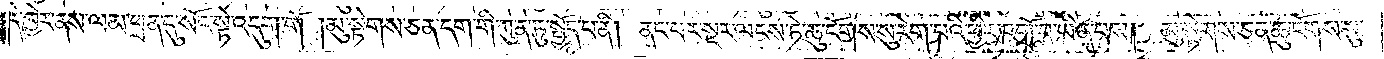དེ་ཁྱེར་ནས་ལམ་ཕྲན་དུ་སོང་སྟེ་འདུག་གོ །མུ་སྟེགས་ཅན་དག་གི་ཀུན་ཏུ་སྤྱོད་པ་ནི། ནང་པར་སྔར་ལངས་ཏེ་ཆུ་ངོགས་སུ་རེག་པའི་ཕྱིར་འགྲོ་བ་ཡིན་པས། མུ་སྟེགས་ཅན་ཆུ་ངོགས་སུ་
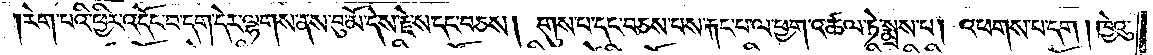རེག་པའི་ཕྱིར་འདོང་བ་དག་དེར་ལྷགས་ནས་བུ་མོ་དེས་རྗེ་ས་དང་བཅས། གུས་པ་དང་བཅས་པས་རྐང་པ་ལ་ཕྱག་འཚལ་ཏེ་སྨྲས་པ། འཕགས་པ་དག །ཁྱེའུ་
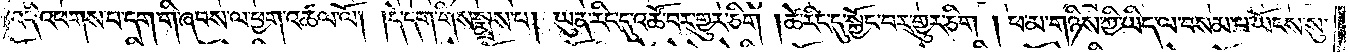འདི་འཕགས་པ་དག་གི་ཞབས་ལ་ཕྱག་འཚལ་ལོ། །དེ་དག་གིས་སྨྲས་པ། ཡུན་རིང་དུ་འཚོ་བར་གྱུར་ཅིག །ཚེ་རིང་དུ་སྐྱོང་བར་གྱུར་ཅིག །ཕ་མ་གཉིས་ཀྱི་ཡིད་ལ་བསམ་པ་ཡོངས་སུ་
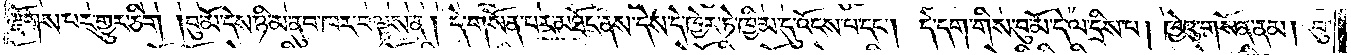རྫོགས་པར་གྱུར་ཅིག །བུ་མོ་དེས་ཉི་མ་ནུབ་ཁར་བལྟས་ན། དེ་གསོན་པར་མཐོང་ནས་དེས་དེ་ཁྱེར་ཏེ་ཁྱིམ་དུ་འོངས་པ་དང༌། དེ་དག་གིས་བུ་མོ་དེ་ལ་དྲིས་པ། ཁྱེའུ་གསོན་ནམ། བུ་
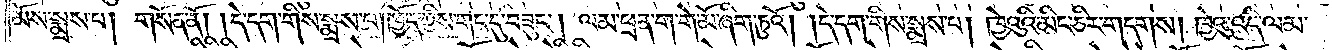མོས་སྨྲས་པ། གསོན་ནོ། །དེ་དག་གིས་སྨྲས་པ། ཁྱོད་ཀྱིས་གང་དུ་བཟུང༌། ལམ་ཕྲན་ག་གེ་མོ་ཞིག་ཏུའོ། །དེ་དག་གིས་སྨྲས་པ། ཁྱེའུའི་མིང་ཅིར་གདགས། ཁྱེའུ་འདི་ལམ་
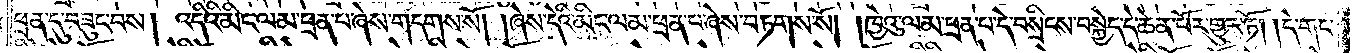ཕྲན་དུ་བཟུང་བས། འདིའི་མིང་ལམ་ཕྲན་པ་ཞེས་གདགས་སོ། །ཞེས་དེའི་མིང་ལམ་ཕྲན་པ་ཞེས་བཏགས་སོ། །ཁྱེའུ་ལམ་ཕྲན་པ་དེ་བསྲིངས་བསྐྱེད་དེ་ཆེན་པོར་གྱུར་ཏོ། །དེ་གང་
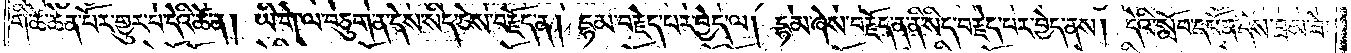གི་ཚེ་ཆེན་པོར་གྱུར་པ་དེའི་ཚེ་ན། ཡི་གེ་ལ་བཅུག་ན་དེས་སིད་ཅེས་བརྗོད་ན། དྷམ་བརྗེད་པར་བྱེད་ལ། དྷམ་ཞེས་བརྗོད་ན་ནི་སིད་བརྗེད་པར་བྱེད་ནས། དེའི་སློབ་དཔོན་དེས་བྲམ་ཟེ་
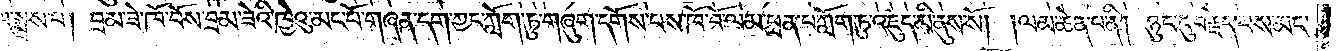ལ་སྨྲས་པ། བྲམ་ཟེ་ཁོ་བོས་བྲམ་ཟེའི་ཁྱེའུ་མང་པོ་གཞན་དག་ཀྱང་ཀློག་ཏུ་གཞུག་དགོས་པས་ཁོ་བོ་ལམ་ཕྲན་པ་ཀློག་ཏུ་འཇུད་མི་ནུས་སོ། །ལམ་ཆེན་པ་ནི། ཉུང་ངུ་བརྗོད་པས་མང་
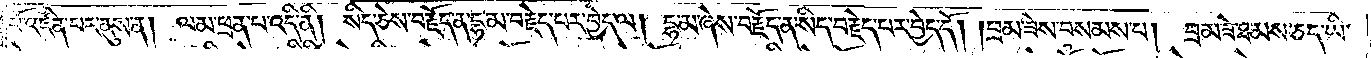པོ་འཛིན་པར་ནུས་ན། ལམ་ཕྲན་པ་འདི་ནི། སིད་ཅེས་བརྗོད་ན་དྷམ་བརྗེད་པར་བྱེད་ལ། དྷ་མ་ཞེས་བརྗོད་ན་སིད་བརྗེད་པར་བྱེད་དོ། །བྲམ་ཟེས་བསམས་པ། བྲམ་ཟེ་ཐམས་ཅད་ཡི་
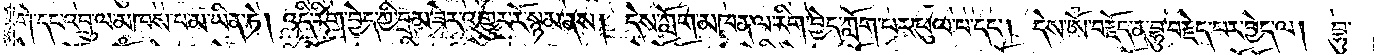གེ་དང་འབྲུ་ལ་མཁས་པ་མ་ཡིན་ཏེ། འདི་རིག་བྱེད་ཀྱི་བྲམ་ཟེར་འགྱུར་རོ་སྙམ་ནས། དེས་ཀློག་མཁན་ལ་རིག་བྱེད་ཀློག་པར་ཕུལ་པ་དང༌། དེས་ཨོཾ་བརྗོད་ན་བྷུ་བརྗེད་པར་བྱེད་ལ། བྷུ་
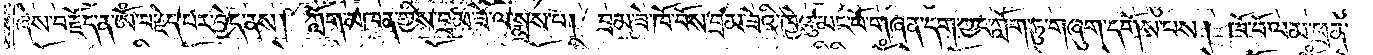ཞེས་བརྗོད་ན་ཨོཾ་བརྗེད་པར་བྱེད་ནས། ཀློག་མཁན་གྱིས་བྲམ་ཟེ་ལ་སྨྲས་པ། བྲམ་ཟེ་ཁོ་བོས་བྲམ་ཟེའི་ཁྱེའུ་མང་པོ་གཞན་དག་ཀྱང་ཀློག་ཏུ་གཞུག་དགོས་པས། ཁོ་བོ་ལམ་ཕྲན་
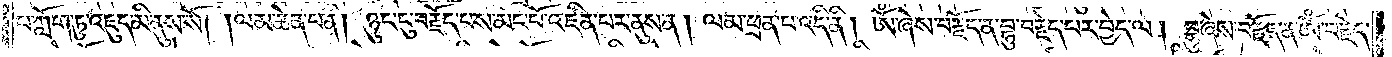པ་ཀློག་ཏུ་འཇུད་མི་ནུས་སོ། །ལམ་ཆེན་པ་ནི། ཉུང་ངུ་བརྗོད་པས་མང་པོ་འཛིན་པར་ནུས་ན། ལམ་ཕྲན་པ་འདི་ནི། ཨོཾ་ཞེས་བརྗོད་ན་བྷུ་བརྗེད་པར་བྱེད་ལ། བྷུ་ཞེས་བརྗོད་ན་ཨོཾ་བརྗེད་
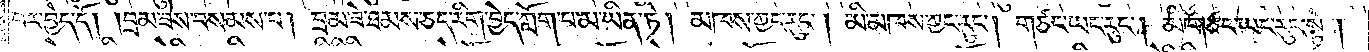པར་བྱེད་དོ། །བྲམ་ཟེས་བསམས་པ། བྲམ་ཟེ་ཐམས་ཅད་རིག་བྱེད་ཀློག་པ་མ་ཡིན་ཏེ། མཁས་ཀྱང་རུང༌། མི་མཁས་ཀྱང་རུང༌། གཙང་ཡང་རུང༌། མི་གཙང་ཡང་རུང་སྟེ།
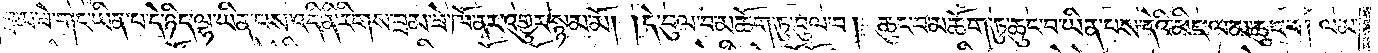བྲམ་ཟེ་གང་ཡིན་པ་དེ་ཉིད་ལྷ་ཡིན་པས་འདི་ནི་རིགས་བྲམ་ཟེ་ཁོ་ནར་འགྱུར་སྙམ་མོ། །དེ་བུལ་བ་མཆོག་ཏུ་བུལ་བ། ཆུང་བ་མཆོག་ཏུ་ཆུང་བ་ཡིན་པས་དེའི་མིང་ལམ་ཆུང་བ། ལམ་
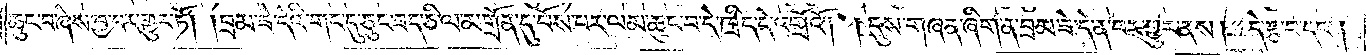ཆུང་བ་ཞེས་བྱ་བར་གྱུར་ཏོ། །བྲམ་ཟེ་དེའི་གང་དུ་ཅུང་ཟད་ཅི་ལ་མགྲོན་དུ་བོས་པར་ལམ་ཆུང་བ་དེ་ཁྲིད་དེ་འགྲོའོ། །དུས་གཞན་ཞིག་ན་བྲམ་ཟེ་དེ་ན་བར་གྱུར་ནས། དེ་རྩ་བ་དང༌།
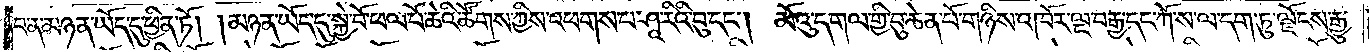བ་ན་མཉན་ཡོད་དུ་ཕྱིན་ཏོ། །མཉན་ཡོད་དུ་སྐྱེ་བོ་ཕལ་པོ་ཆེའི་ཚོགས་ཀྱིས་འཕགས་པ་ཤཱ་རིའི་བུ་དང༌། མོའུ་དགལ་གྱི་བུ་ཆེན་པོ་གཉིས་འཁོར་ལྔ་བརྒྱ་དང་ཀོ་ས་ལ་དག་ཏུ་ལྗོངས་རྒྱུ་
